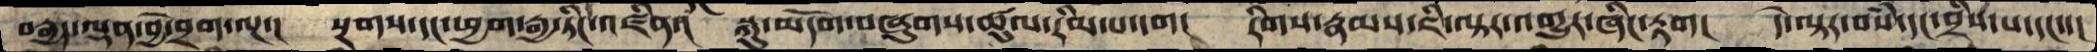བརྒྱད་ལྡན་བྱེ་བྲག་ལྔ་།  སྔགས་དང་ཕྱག་རྒྱ་ཏིངེ་འཛིན་།  སྐུ་མདོག་བཞུགས་ཚུལ་རིམ་པ་དག།  རིགས་རྣམས་ཇི་ལྟར་འགྱུར་ཞིང་རྟག།  དེ་ལྟར་བསཾ་དང་བྲིས་པ་དང་་།
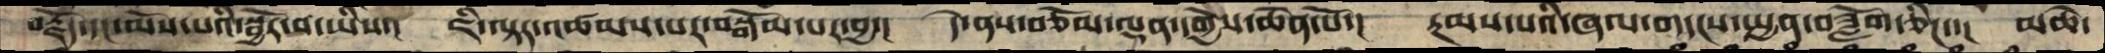བརྗོད་དང་མོས་པའི་སྦྱོར་བ་ཡིས་།  ཇི་ལྟར་འཚམས་པར་བསྒོམ་པར་བྱ་།  དེ་ནས་བཅོམ་ལྡན་དགྱེས་ཆེན་པོ་།  རྔམས་པའི་ཞལ་གདངས་སྤྱན་བཟློག་ཅིང་་།  མཆེ་
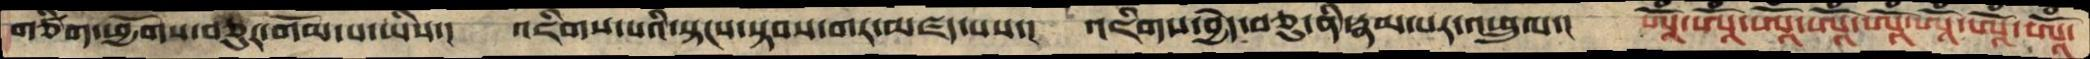གཙིག་ཕྱོགས་བཅུར་གོམ་པ་ཡིས་།  འཇིགས་པའི་སྟངས་སྟབས་གར་མཛད་པས་།  འཇིགས་བྱེད་བཅུ་ནི་རྣམ་པར་འཕྲུལ་།  ཨཱོཾ་ཨཱོཾ་ཨཱོཾ་ཨཱོཾ་ཨཱོཾ་ཨཱོཾ་ཨཱོཾ་ཨཱོཾ་
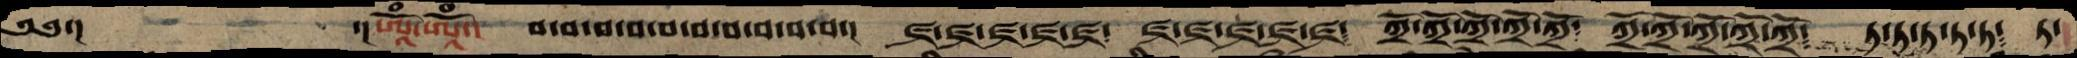༄༅་།    ་།ཨཱོཾ་ཨཱོཾ་།  བ་བ་བ་བ་བ་བ་བ་བ་བ་བ་།   ཛྲ་ཛྲ་ཛྲ་ཛྲ་ཛྲ༴  ཛྲ་ཛྲ་ཛྲ་ཛྲ་ཛྲ༴  ཀྲོ་ཀྲོ་ཀྲོ་ཀྲོ་ཀྲོ༴    ཀྲོ་ཀྲོ་ཀྲོ་ཀྲོ་ཀྲོ༴   ཏ་ཏ་ཏ་ཏ་ཏ༴  ཏ་
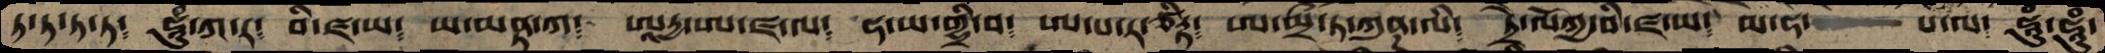ཏ་ཏ་ཏ་ཏ༴  ཧཱུཾ་ཀ་ར༴  བི་ཛ་ཡ༴  ཡ་མནྟ་ཀ༴  ཨཱརྱ་ཨ་ཛ་ལ༴  ཧ་ཡ་གྷྲི་བ༴  ཨ་པ་ར་ཙིཏྟ༴  ཨ་མྲྀ་ཏ་ཀུནྜ་ལི༴  ཏྲེ་ལོཀྱ་བི་ཛ་ཡ༴  མ་ཧ་   པ་ལ༴  ཧཱུཾ་ཧཱུཾ་
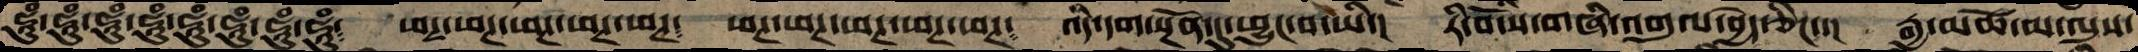ཧཱུཾ་ཧཱུཾ་ཧཱུཾ་ཧཱུཾ་ཧཱུཾ་ཧཱུཾ་ཧཱུཾ་ཧཱུཾ༴  ཕཊ་ཕཊ་ཕཊ་ཕཊ་ཕཊ།  ཕཊ་ཕཊ་ཕཊ་ཕཊ་ཕཊ༴  འདི་དག་སྔོན་དུ་ཕྱུང་བ་ཡི་།  རི་བོ་ས་བཞི་འགུལ་བྱེད་ཅིང་་།  རྒྱ་མཚོ་མ་ལུས་
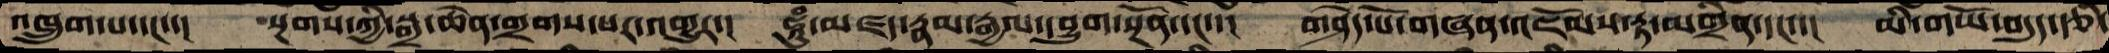འཁྲུག་པ་དང་་།  སྔགས་ཀྱི་སྒྲ་ཆེན་གྲགས་པར་འགྱུར་།  ཧཱུཾ་མཛད་རྣམ་རྒྱལ་དབྱུག་སྔོན་དང་་།  གཤེད་པོ་གཞན་འཇོམས་རྟ་མགྲིན་དང་་།  མི་གཡོ་བདུད་རྩི་
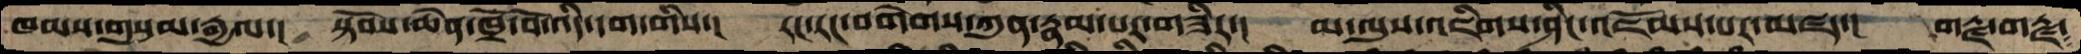ཁམས་གསུམ་རྒྱལ་།  སྟོབས་ཆེན་ཁྲོ་བོ་འདི་དག་གིས་།  རང་རང་བགེགས་ཀུན་རྣམ་པར་གཟིར་།  མ་ལུས་འཇིགས་ཤིང་འཇོམས་པར་མཛད་།  གརྫ་གརྫ༴
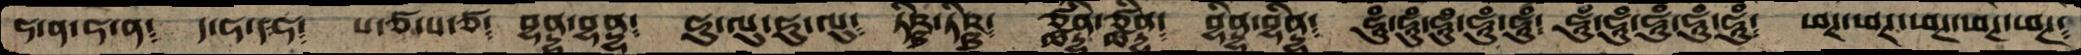ཧ་ན་ཧ་ན༴  ད་ཧ་ད་ཧ༴  པ་ཙ་པ་ཙ༴  བྷནྡྷ་བྷནྡྷ༴  ཧུ་ལུ་ཧུ་ལུ༴  ཏིཥྠ་ཏིཥྠ༴  ཙྪནྡྷི་ཙྪནྡྷི༴  ཧཱུཾ་ཧཱུཾ་ཧཱུཾ་ཧཱུཾ་ཧཱུཾ༴  ཧཱུཾ་ཧཱུཾ་ཧཱུཾ་ཧཱུཾ་ཧཱུཾ༴  ཕཊ་ཕཊ་ཕཊ་ཕཊ་ཕཊ༴
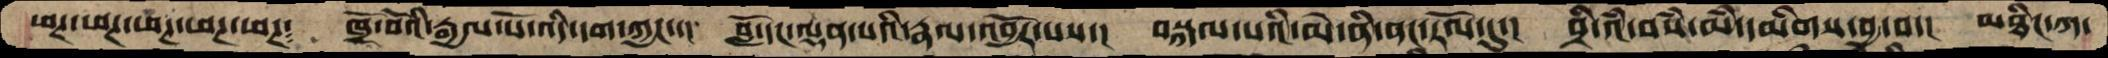ཕཊ་ཕཊ་ཕཊ་ཕཊ་ཕཊ༴  ཁྲོ་བོའི་རྒྱལ་པོ་འདི་དག་ཀྱང་་།  བློ་དང་ལྡན་པའི་རྣལ་འབྱོར་པས་།  བསྐལ་པའི་མེ་ནི་ནང་རོལ་དུ་།  བྲི་འཾ་བསཾ་མཾ་དམིགས་བྱ་བ་།  མཐིང་ཀ་
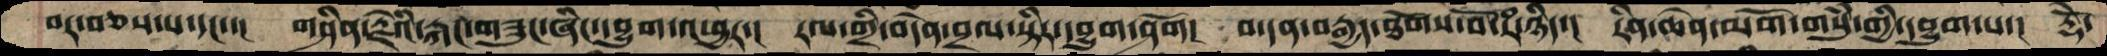བར་བཅས་པདང་་།  གཤིནརྗེའི་རྐང་གཟུང་ཞིང་དབྱུག་འཕྱར་།  རལ་གྲི་བདེན་བྲལ་སྟིར་དབྱུག་ཤོག།  བ་དན་བརྒྱད་ཐོགས་བོ་རཾ་ཉིད་།  རིན་ཆེན་མགོ་གསུཾ་གྱི་དབྱུག་པ་།  རྡོེ་
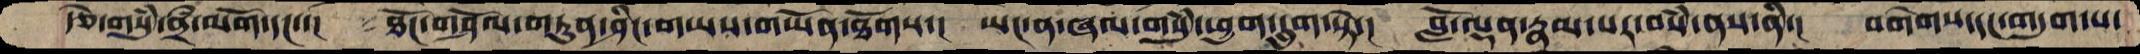རྩེ་གསུཾ་ནྲྀ་མགོ་དང་་།  ཐོང་གཤོལ་གཏུན་ཤིང་གཡས་གཡོན་ཐོགས་།  ཡང་ན་ཞལ་གསུཾ་ཕྱག་དྲུག་སྟེ་།  བློ་ལྡན་རྣམ་པར་བསཾ་ནས་ནི་།  བགེགས་དང་གདུག་པ་
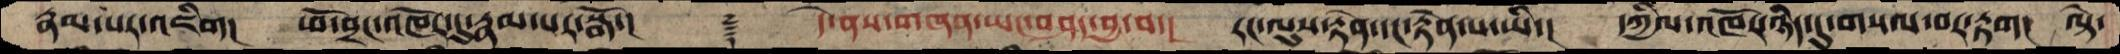རྣམ་པར་འཇིག།  ཕོ་བྲང་འཁོར་དུ་རྣམ་པར་སྒོ་།    ࿑    དེ་ནས་གཞན་ཡང་བཤད་བྱ་བ་།  རང་ལུས་རྟེན་དང་རྟེན་པ་ཡི་།  དཀྱིལ་འཁོར་ཉིད་དུ་གསལ་བར་རྟག།  ལྟེ་
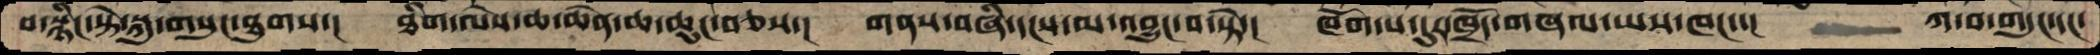ས་སྙིང་སྟེ་སྐུ་གསུང་ཐུགས་།  ཐིག་ལེས་ཆ་ཆེན་ཆ་ཆུང་བཅས་། གནས་བཞི་དངས་མ་འབྱུང་བ་སྟེ་།  ཁོག་པ་དུར་ཁྲོད་གཞལ་ཡས་ཁང་་།  ཀ་བ་གདུང་དང་
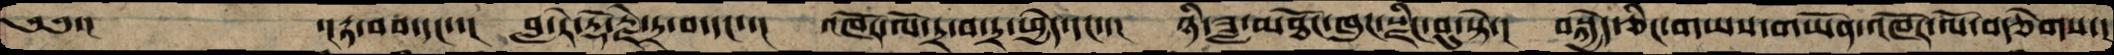༄༅་།      ་།རྟ་བབ་དང་་།  བླ་རེ་རྡོ་རྗེ་དྲ་བ་དང་་།  འཁོར་ལོ་དྲ་བ་དྲ་ཕྱེད་དང་་།  ཉི་ཟླ་མཐོང་ཁུང་སྫིང་བུ་སྟེ་།  བསྐྱེད་ཅིང་གཡས་གཡོན་འཁོར་ལོ་བརྩེགས་།
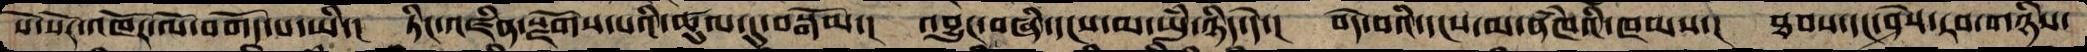སོ་སོར་འཁོར་ལོ་བགོད་པ་ཡི་།   ཏིང་འཛིན་སྫོགས་པའི་ཚུལ་དུ་བསྒོམ་།  འབྱུང་བཞི་དངས་མ་ཡུཾ་ཉིད་དེ་།  བདེ་བའི་དངས་མ་ནཾཁའི་ཁམས་།  ཐབས་དང་ཤེས་རབ་གཉིས་
